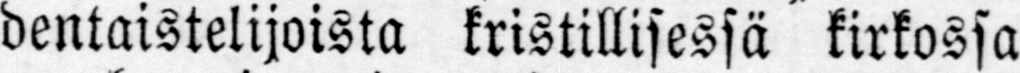dentaistelijoista kristillisessä kirkossa
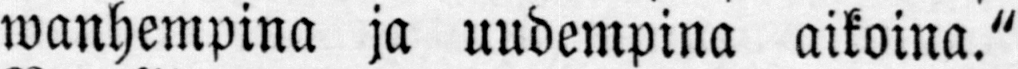wanhempina ja uudempina aikoina."
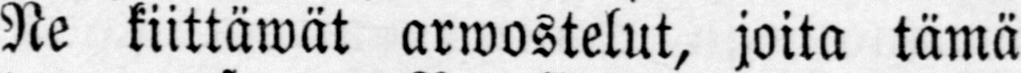Ne kiittäwät arwostelut, joita tämä
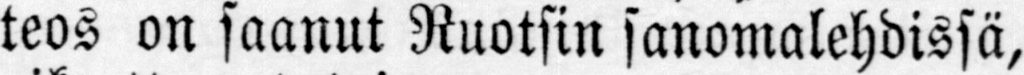teos on saanut Ruotsin sanomalehdissä,
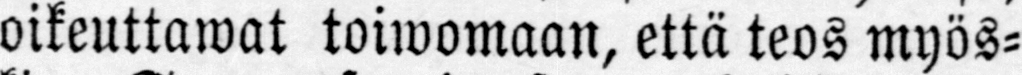oikeuttawat toiwomaan, että teos myös-
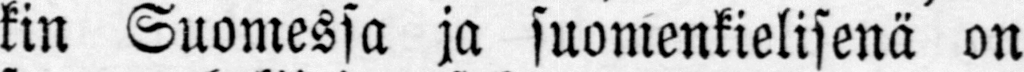kin Suomessa ja suomenkielisenä on
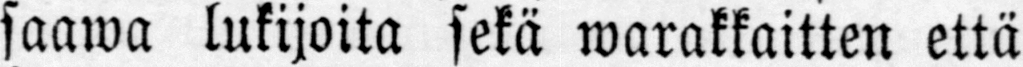saawa lukijoita sekä warakkaitten että
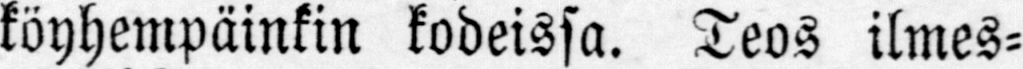köyhempäinkin kodeissa. Teos ilmes-
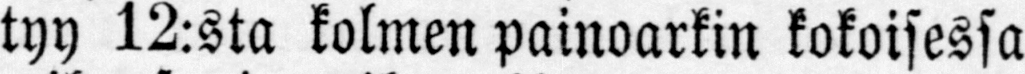tyy 12:sta kolmen painoarkin kokoisessa
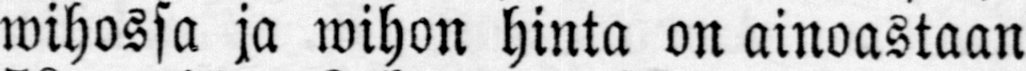wihossa ja wihon hinta on ainoastaan
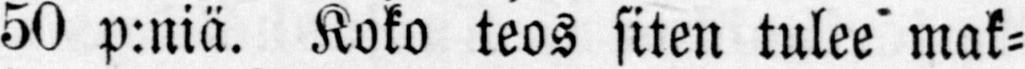50 p:niä. Koko teos siten tulee mak-
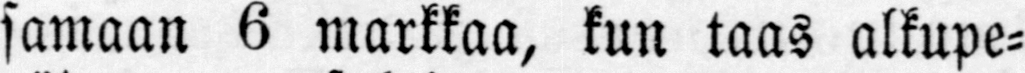samaan 6 markkaa, kun taas alkupe-
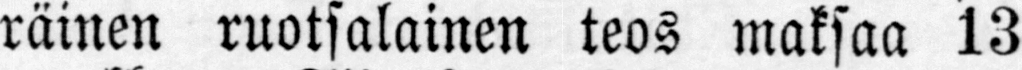räinen ruotsalainen teos maksaa 13
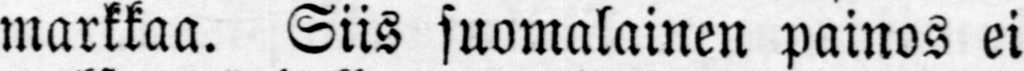markkaa. Siis suomalainen painos ei
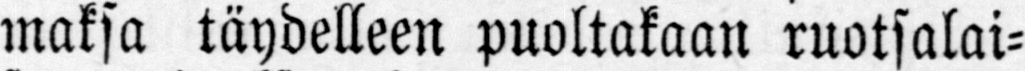maksa täydelleen puoltakaan ruotsalai-
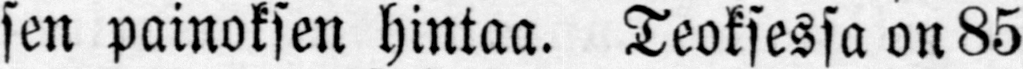sen painoksen hintaa. Teoksessa on 85
